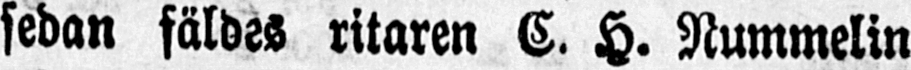sedan fäldes ritaren C. H. Nummelin
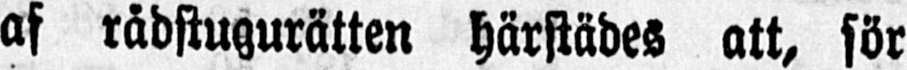af rådstugurätten härstädes att, för
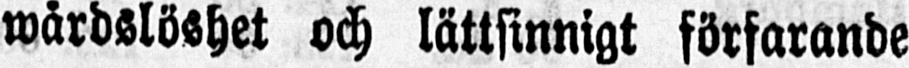wårdslöshet och lättsinnigt förfarande
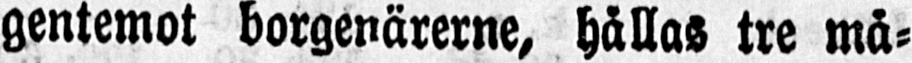gentemot borgenärerne, hållas tre må-
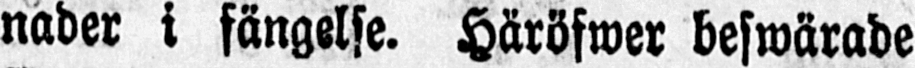nader i fängelse. Häröfwer beswärade
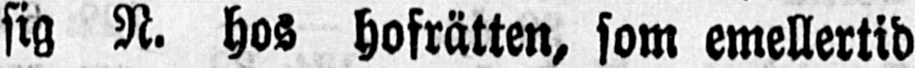sig N. hos hofrätten, som emellertid
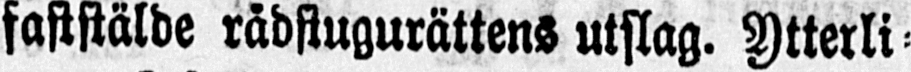faststälde rådstugurättens utslag. Ytterli-
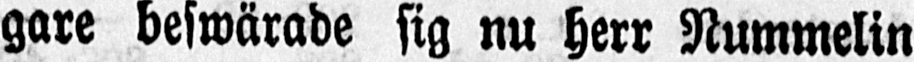gare beswärade sig nu herr Nummelin
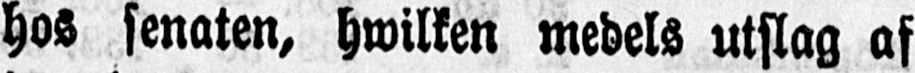hos senaten, hwilken medels utslag af
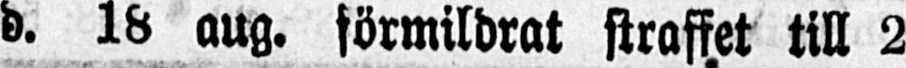d. 18 aug. förmildrat straffet till 2
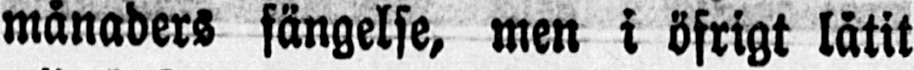månaders fängelse, men i öfrigt låtit
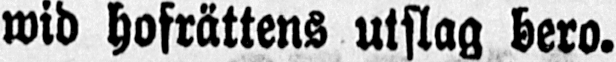wid hofrättens utslag bero.
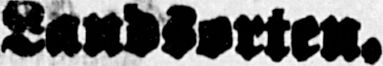Landsorten.
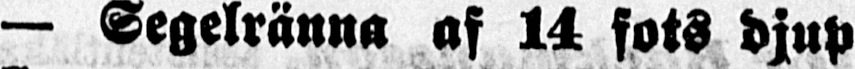— Segelränna af 14 fots djup
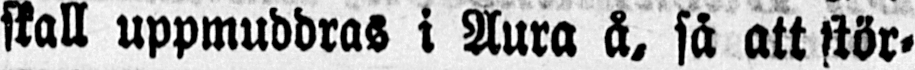skall uppmuddras i Aura å, så att stör-
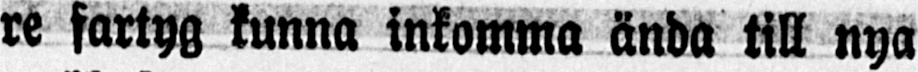re fartyg kunna inkomma ända till nya
